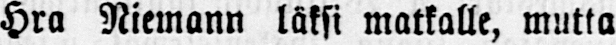Hra Niemann läksi matkalle, mutta
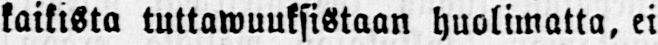kaikista tuttawuuksistaan huolimatta, ei
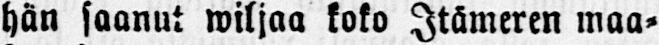hän saanut wiljaa koko Itämeren maa-
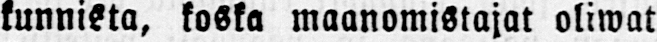kunnista, koska maanomistajat oliwat
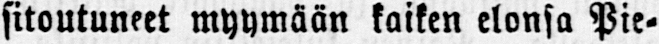sitoutuneet myymään kaiken elonsa Pie-
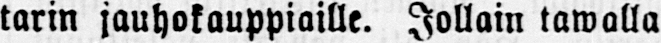tarin jauhokauppiaille. Jollain tawalla
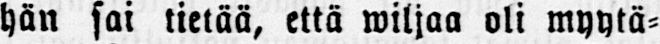hän sai tietää, että wiljaa oli myytä-
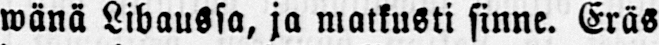wänä Libaussa, ja matkusti sinne. Eräs
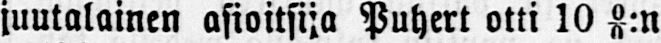juutalainen asioitsija Puhert otti 10 0/0:n
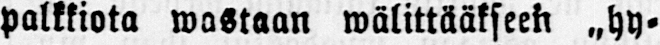palkkiota wastaan wälittääkseen „hy-
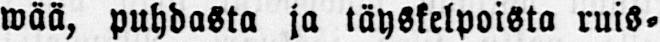wää, puhdasta ja täyskelpoista ruis-
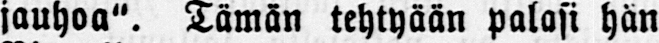jauhoa". Tämän tehtyään palasi hän
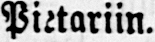Pietariin.
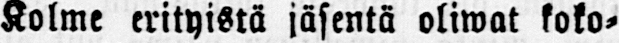Kolme erityisiä jäsentä oliwat koko-
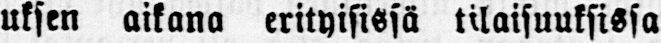uksen aikana erityisissä tilaisuuksissa
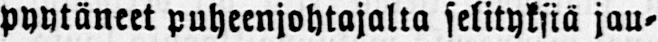pyytäneet puheenjohtajalta selityksiä jau-
